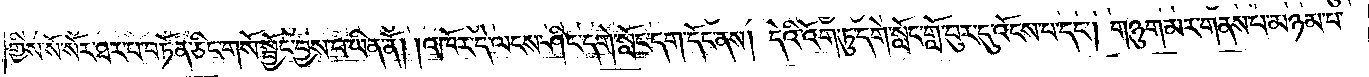གྱིས་སོ་སོར་ཐར་པ་བཏོན་ཅིང་གསོ་སྦྱོང་བྱས་པ་ཡིན་ནོ། །འཁོར་དེ་ལངས་ཤིང་དགེ་སློང་དག་དོང་ནས། དེའི་འོག་ཏུ་དགེ་སློང་གློ་བུར་དུ་འོངས་པ་དང༌། གཉུག་མར་གནས་པ་མཉམ་པ་
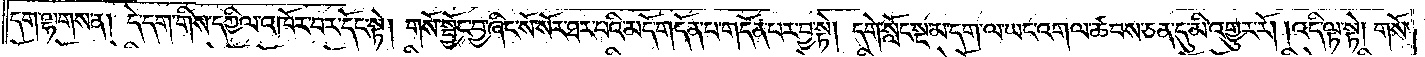དག་ལྷགས་ན། དེ་དག་གིས་དཀྱིལ་འཁོར་བར་དོང་སྟེ། གསོ་སྦྱོང་བྱ་ཞིང་སོ་སོར་ཐར་པའི་མདོ་གདོན་པ་གདོན་པར་བྱ་སྟེ། དགེ་སློང་སྔ་མ་དག་ལ་ཡང་འགལ་ཚབས་ཅན་དུ་མི་འགྱུར་རོ། །འདི་ལྟ་སྟེ། གསོ་
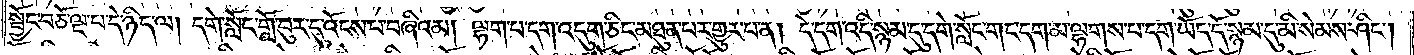སྦྱོང་བཅོ་ལྔ་པ་དེ་ཉིད་ལ། དགེ་སློང་གློ་བུར་དུ་འོངས་པ་བཞིའམ། ལྷག་པ་དག་འདུག་ཅིང་མཐུན་པར་གྱུར་པ་ན། དེ་དག་འདི་སྙམ་དུ་དགེ་སློང་གང་དག་མ་ལྷགས་པ་དག་ཡོད་དོ་སྙམ་དུ་མི་སེམས་ཤིང༌།
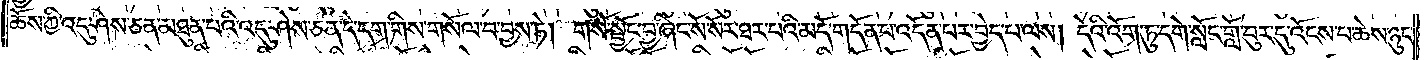ཆོས་ཀྱི་འདུ་ཤེས་ཅན་མཐུན་པའི་འདུ་ཤེས་ཅན་དེ་དག་གིས་གསོལ་བ་བྱས་ཏེ། གསོ་སྦྱོང་བྱ་ཞིང་སོ་སོར་ཐར་པའི་མདོ་གདོན་པ་འདོན་པར་བྱེད་པ་ལས། དེའི་འོག་ཏུ་དགེ་སློང་གློ་བུར་དུ་འོངས་པ་ཆེས་ཉུང་
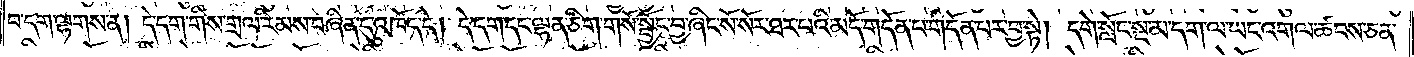བ་དག་ལྷགས་ན། དེ་དག་གིས་གྲལ་རིམས་བཞིན་དུ་འཁོད་དེ། དེ་དག་དང་ལྷན་ཅིག་གསོ་སྦྱོང་བྱ་ཞིང་སོ་སོར་ཐར་པའི་མདོ་གདོན་པ་གདོན་པར་བྱ་སྟེ། དགེ་སློང་སྔ་མ་དག་ལ་ཡང་འགལ་ཚབས་ཅན་
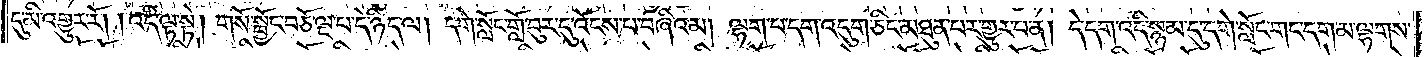དུ་མི་འགྱུར་རོ། །འདི་ལྟ་སྟེ། གསོ་སྦྱོང་བཅོ་ལྔ་པ་དེ་ཉིད་ལ། དགེ་སློང་གློ་བུར་དུ་འོངས་པ་བཞིའམ། ལྷག་པ་དག་འདུག་ཅིང་མཐུན་བར་གྱུར་པ་ན། དེ་དག་འདི་སྙམ་དུ་དགེ་སློང་གང་དག་མ་ལྷགས་
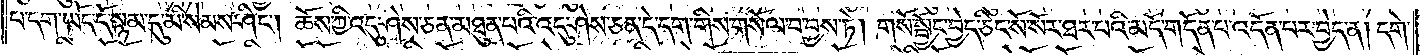པ་དག་ཡོད་དོ་སྙམ་དུ་མི་སེམས་ཤིང༌། ཆོས་ཀྱི་འདུ་ཤེས་ཅན་མཐུན་པའི་འདུ་ཤེས་ཅན་དེ་དག་གིས་གསོལ་བ་བྱས་ཏེ། གསོ་སྦྱོང་བྱེད་ཅིང་སོ་སོར་ཐར་པའི་མདོ་གདོན་པ་འདོན་པར་བྱེད་ན། དགེ་
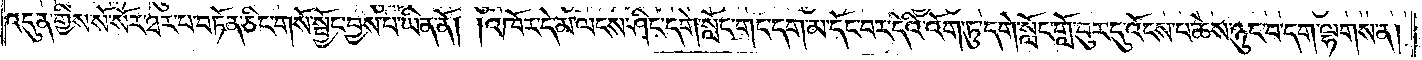འདུན་གྱིས་སོ་སོར་ཐར་པ་བཏོན་ཅིང་གསོ་སྦྱོང་བྱས་པ་ཡིན་ནོ། །འཁོར་དེ་མ་ལངས་ཤིང་དགེ་སློང་གང་དག་མ་དོང་བར་དེའི་འོག་ཏུ་དགེ་སློང་གློ་བུར་དུ་འོངས་པ་ཆེས་ཉུང་བ་དག་ལྷགས་ན་
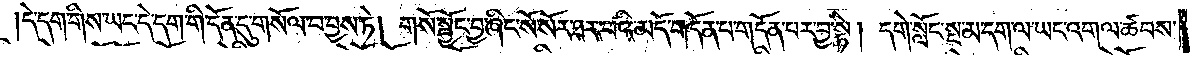དེ་དག་གིས་ཡང་དེ་དག་གི་དོན་དུ་གསོལ་བ་བྱས་ཏེ། གསོ་སྦྱོང་བྱ་ཞིང་སོ་སོར་ཐར་པའི་མདོ་གདོན་པ་གདོན་པར་བྱ་སྟེ། དགེ་སློང་སྔ་མ་དག་ལ་ཡང་འགལ་ཚབས་
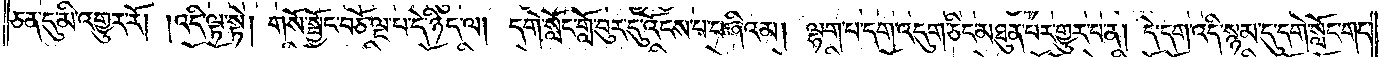ཅན་དུ་མི་འགྱུར་རོ། །འདི་ལྟ་སྟེ། གསོ་སྦྱོང་བཅོ་ལྔ་པ་དེ་ཉིད་ལ། དགེ་སློང་གློ་བུར་དུ་འོངས་པ་བཞིའམ། ལྷག་པ་དག་འདུག་ཅིང་མཐུན་པར་གྱུར་པ་ན། དེ་དག་འདི་སྙམ་དུ་དགེ་སློང་གང་
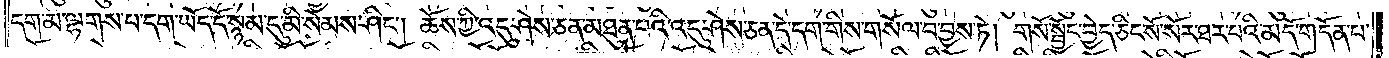དག་མ་ལྷགས་པ་དག་ཡོད་དོ་སྙམ་དུ་མི་སེམས་ཤིང༌། ཆོས་ཀྱི་འདུ་ཤེས་ཅན་མཐུན་པའི་འདུ་ཤེས་ཅན་དེ་དག་གིས་གསོལ་བ་བྱས་ཏེ། གསོ་སྦྱོང་བྱེད་ཅིང་སོ་སོར་ཐར་པའི་མདོ་གདོན་པ་
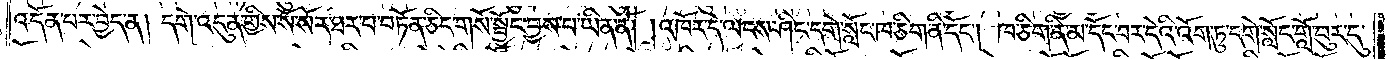འདོན་པར་བྱེད་ན། དགེ་འདུན་གྱིས་སོ་སོར་ཐར་པ་བཏོན་ཅིང་གསོ་སྦྱོང་བྱས་པ་ཡིན་ནོ། །འཁོར་དེ་ལངས་ཤིང་དགེ་སློང་ཁ་ཅིག་ནི་དོང༌། ཁ་ཅིག་ནི་མ་དོང་བར་དེའི་འོག་ཏུ་དགེ་སློང་གློ་བུར་དུ་
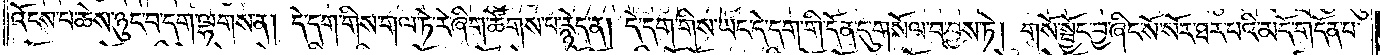འོངས་པ་ཆེས་ཉུང་བ་དག་ལྷགས་ན། དེ་དག་གིས་གལ་ཏེ་རེ་ཞིག་ཚོགས་པ་རྙེད་ན། དེ་དག་གིས་ཡང་དེ་དག་གི་དོན་དུ་གསོལ་བ་བྱས་ཏེ། གསོ་སྦྱོང་བྱ་ཞིང་སོ་སོར་ཐར་པའི་མདོ་གདོན་པ་
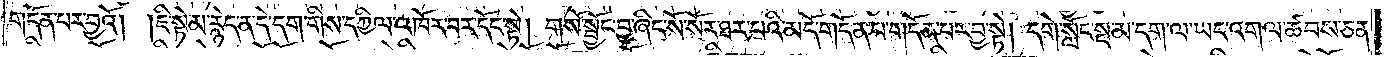གདོན་པར་བྱའོ། །ཇི་སྟེ་མ་རྙེད་ན་དེ་དག་གིས་དཀྱིལ་འཁོར་བར་དོང་སྟེ། གསོ་སྦྱོང་བྱ་ཞིང་སོ་སོར་ཐར་པའི་མདོ་གདོན་པ་གདོན་པར་བྱ་སྟེ། དགེ་སློང་སྔ་མ་དག་ལ་ཡང་འགལ་ཚབས་ཅན་
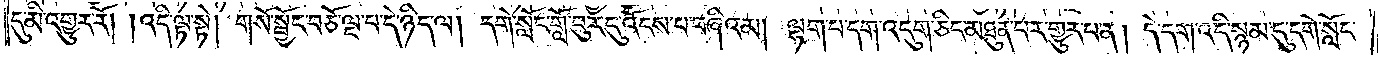དུ་མི་འགྱུར་རོ། །འདི་ལྟ་སྟེ། གསོ་སྦྱོང་བཅོ་ལྔ་པ་དེ་ཉིད་ལ། དགེ་སློང་གློ་བུར་དུ་འོངས་པ་བཞིའམ། ལྷག་པ་དག་འདུག་ཅིང་མཐུན་པར་གྱུར་པ་ན། དེ་དག་འདི་སྙམ་དུ་དགེ་སློང་
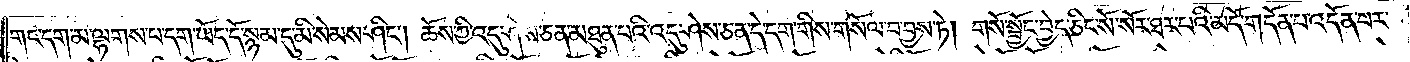གང་དག་མ་ལྷགས་པ་དག་ཡོད་དོ་སྙམ་དུ་མི་སེམས་ཤིང༌། ཆོས་ཀྱི་འདུ་ཤེས་ཅན་མཐུན་པའི་འདུ་ཤེས་ཅན་དེ་དག་གིས་གསོལ་བ་བྱས་ཏེ། གསོ་སྦྱོང་བྱེད་ཅིང་སོ་སོར་ཐར་པའི་མདོ་གདོན་པ་འདོན་པར་
